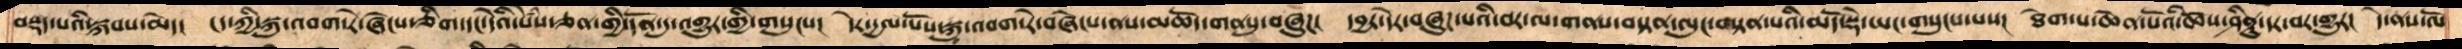བསྡད་པའི་སྐབས་མེད།  ངད་ཀྱི་སྐུ་འབག་རེ་ཞེངས་ཅིག་དང་དེའི་སེཾས་ཅན་གྱི་དོན་དུ་འགྱུར་གྱི་གསུངས།  དེར་དྱལ་པོས་སྐུ་འབག་རེ་བཞེངས་ནས་མཆོད་གནསུ་བཞུཌ།  དབྱར་དེར་བཞུཌ་པའི་བར་ལ་གནས་བསྟན་ལུང་བསྟན་པའི་མདོ་སྡེ་ཡང་གསུངས་པས།  ཐེག་པ་ཆེན་པོའི་ཆོས་ཤིནྟུ་དར་བར་གྱུར།  དེ་ནས་ལོ་
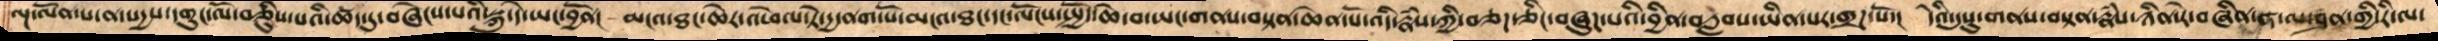ལྔ་ལོན་པ་ན་སདྱས་དགུང་ལོ་བཅིུས་པའི་ཚད་དུ་བཞེངས་པའི་སྐུ་དེ་ཡང་བྱོན།  མངའ་ཐང་ཆེར་འཕེལ་ཏེ་དྱ་ནག་པོ་མངའ་ཐང་དང་ལོངས་སྤྱོད་ཆེ་བ་ཡང་གནས་བསྟན་ཆེན་པོ་འདི་རྣཾས་ཀྱི་བཅད་ཅིང་བཞུཌ་པའི་བྱིན་བརླབས་ཡིན་པར་གྲཌ་སོ་།  དེའི་དུསུ་གནས་བསྟན་རྣཾས་ཉིན་རེ་བཞིན་ཤ་ལ་ཤན་གྱི་རི་ལ་
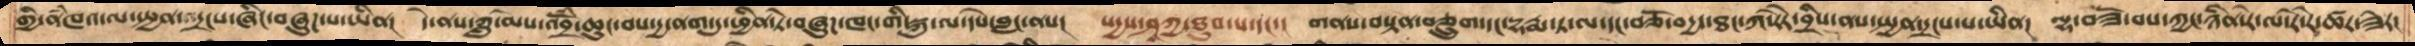གྱི་ནཾཁའ་ལ་སྤྱན་འདྲངས་ཞིང་བཞུཌ་པ་ཡིན།  དེ་ནས་ཀླུ་མོས་འབྲོཾ་ཆུང་བས་དྱ་ནག་དུ་ཕྱིན་ཏེ་བཞུཌ་ཁང་གི་སྐུ་ལ་དཔེ་བླང་ནས།  སདྱས་ཤཱཀྱ་ཐུབ་པ་དང་། གནས་བསྟན་བཅྲུག་དང་དྷརྨ་ཏ་ལ་དང་བཅོ་བདྱད་ཐང་ཀ་རཻ་བྲིས་ནས་སྤྱན་དྲངས་པ་ཡིན།  ལྷ་བཟོ་བས་ཀྱང་ཉིན་རེ་ལ་རེ་རེ་ཚར་ཟེར།
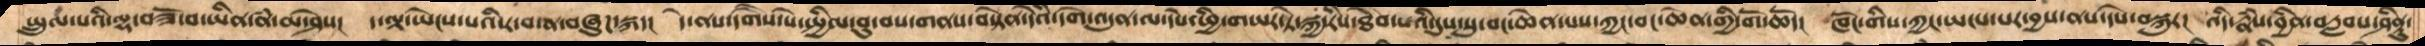སྤྲུལ་པའི་ལྷ་བཟོ་བ་ཡིན་ནཾ་མ་ཤེས།  ད་ལྟ་ཡེངས་པའི་ར་བ་ན་བཞུཌ་སྐད།  དེ་ནས་དགཻས་སྤྱིལ་བུ་བས་གནས་བསྟེན་དེའི་དགེ་འདུན་ལ་དེས་ཕྱི་གཡར་ཏེ་སྐྱ་རིས་ཐེབ་པའི་དུས་སུ་བང་ཆེན་པས་ཀྱང་བང་ཆེན་གྱི་གོ་ཆོད།  ཁོང་གིས་ཀྱང་ཡངས་པར་བྱས་ནས་དཔེ་བསྐུར།  འདི་རྣཾས་བྱིན་བརླབས་ཤིནྟུ་
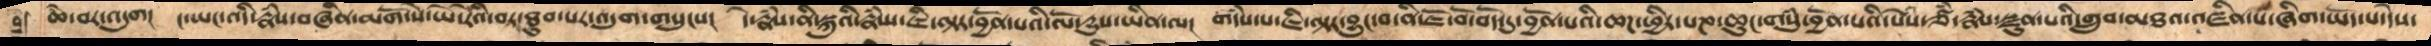ཆེ་བར་འདུག  ང་ཡང་འདི་རྣཾས་བཞིན་མགོ་སེ་ཡོ་རེའི་བར་ཐུབ་པར་འདུག་གསུངས།  དེ་རྣཾས་ནི་སྐུའི་རྣཾ་པ་ཇི་ལྟར་བྱོན་པའི་ལོ་དྱུས་ཡིན་ལ།  གདཾས་པ་ཇི་ལྟར་བྱུང་བ་ནི་ཇོ་བོ་བོད་དུ་བྱོན་པའི་ཆཌ་ཕྱིར་པཎ་ཆུང་གསུཾ་བྱོན་པའི་སེཾས་ཙཾ་རྣཾས་སྫུན་པའི་གྲུབ་མཐའ་འཛིན་པ་ཞིག་ཡོད་པ་དེས་
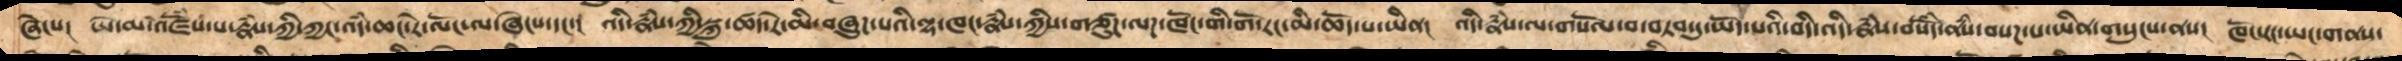ཞེངས།  ཡེ་མ་འཛོཾས་པ་རྣཾས་ཀྱི་ཀྱང་འདཾ་ཆང་རེ་ལོང་ལ་ཞེངས་དང་།  འདི་རྣཾས་ཀྱི་སྐུ་ཚད་རེ་མི་བཞུཌ་པའི་ལྷ་ཁང་རྣཾས་ཀྱིས་གཙུཌ་ལཌ་ཁོང་གི་གོ་རང་མི་ཆོད་པ་ཡིན།  འདི་རྣཾས་ལ་གསོལ་བ་བཏབ་དུ་ཡོད་པའི་བདི་འདི་རྣཾས་བསོཾད་ནཾས་བསཌ་པ་ཡིན་གསུངས་ནས།  ཁོ་རང་ཡང་གནས་
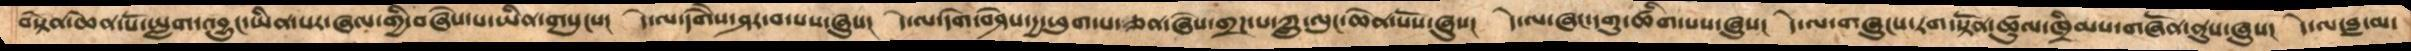བསྟེན་ཆེན་པོ་ཡླག་འབྱུང་ཡིན་པར་ཞལ་གྱི་བཞེས་པ་ཡིན་གསུངས།  དེ་ལ་དགཻས་ཤར་བ་པས་ཞུས།  དེ་ལ་དགེ་བཤེས་དྱ་ཕུག་པ་ཅན་ཞེས་གྲཌ་པ་ཀླུ་ལུང་ཆེན་པོས་ཞུས།  དེ་ལ་ཞང་དགུ་ཚིག་པས་ཞུས།  དེ་ལ་གཞུངས་རག་སྟོན་ཚུལ་ཁྲིམས་གཞོན་ནུས་ཞུས།  དེ་ལ་བླ་མ་
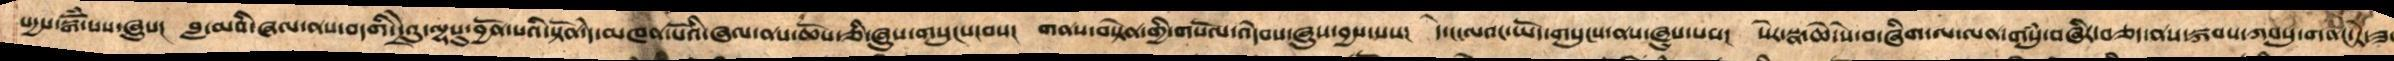སདྱས་སྒོཾ་པས་ཞུས།  བླ་མའི་ཞལ་ནས་བདགི་དྲེའུ་ལྷསུ་བྱོན་པའི་སྟོན་དེ་མཁན་པོའི་ཞལ་ནས་ཆོས་ཅི་ཞུས་གསུངས་བས།  གནས་བསྟེན་གྱི་གསོལ་འདེབས་ཞུས་བྱས་པས།  དེ་ངང་ལའང་ཡོད་གསུངས་ནས་ཞུས་པས།  སེར་སྣ་ཆེ་སེ་བ་ཞིག་ལ་ལན་གསུཾ་བཞིར་བཅད་ནས་སྐབསུ་གནང་ཏེ་ཟ་
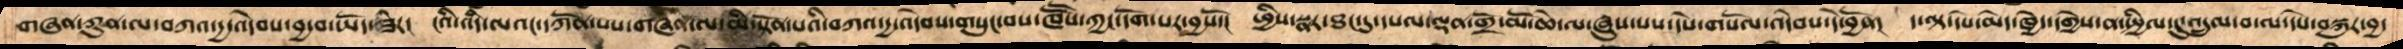གཞན་ཀུན་ལ་བཀའ་དྱ་འདེབས་བྱ་བ་ཡོད་ཟེར།  ངའི་འདི་ལའང་དཀོན་པས་གཞན་ལ་མི་སྟོན་པའི་བཀའ་དྱ་འདེབས་གསུང་བས་ཁཽས་ཀྱང་དོག་པར་བྱས་སོ།  ཕྱིས་སྣར་ཐང་དུ་དཔལ་ལྡན་གྲོ་མོ་ཆེ་ལ་ཞུས་པས་དེས་གསོལ་འདེབས་དེ་བྱོན།  ད་ལྟ་དཔེ་མེད་ཁྱེད་དགྱེས་ན་སྤྱིལ་དུ་འདྲུལ་བ་ལ་དཔེ་བསྐུར་བྱ་
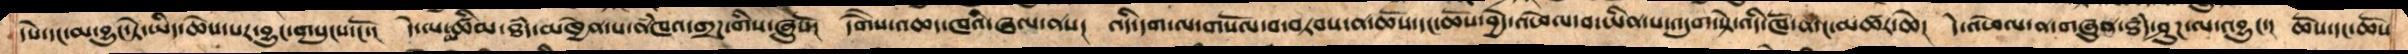དཔེ་དང་མ་བྱུང་ཏེ་ཡིད་ཆེས་པར་བྱུང་གསུངས་ངོ་། དེ་ལ་མཚིམ་ཐཾད་མཁྱེན་པ་ནཾཁའ་གྲཌ་གིས་ཞུསོ། དགཻས་འཆད་ཁའི་ཞལ་ནས། འདི་དག་ལ་གསོལ་བ་བཏབས་ན་ཆོས་དང་ཆོས་བྱེད་འཕེལ་བ་ཡིན་པར་འདུག་སྟེ་འདི་ཁོ་ན་ངོ་མཚར་ཆེ། དེ་འཕེལ་ན་གཞུན་ཐཾད་ཤུཌ་ལ་འབྱུང་། ཆོས་དང་ཆོས
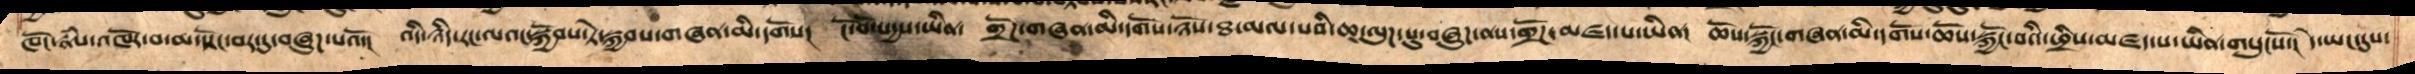ཁོང་རྣཾས་འཁོར་བ་མ་སྟོང་བར་དུ་བཞུཌ་པའོ།  འདི་ཉིད་རང་ལའང་སྐྱོབས་ཏེ་སྐྱབས་གཞན་མི་དགོས།  ངོ་བོ་སདྱས་ཡིན།  གྲོཌ་གཞན་མི་དགོས་ཉོས་ཐ་མལ་པའི་ཆ་ལུཌ་སུ་བཞུཌ་ནས་གྲོཌ་མཛད་པ་ཡིན།  ཆོས་སྐྱོང་གཞན་མི་དགོས་ཆོས་སྐྱོང་བའི་འཕྲིས་མཛད་པ་ཡིན་གསུངསོ་།  དེ་ཡང་དུས་
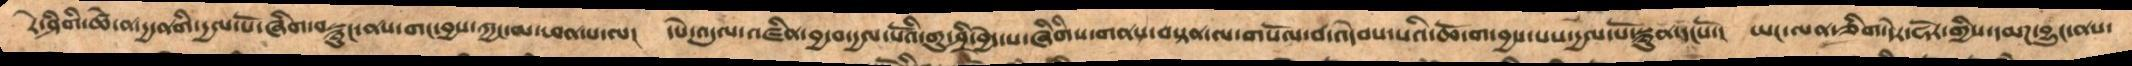རེ་ཤིགི་ཚེ་ན་དྱ་ནགི་དྱལ་པོ་ཞིག་བསྙུང་ནས་གང་བྱས་ཀྱང་མ་ཕན་པ་ལ།  དཔེ་འདུལ་འཛིན་བྱ་བ་དྱལ་པོའི་གུ་ཤྲི་བྱེད་པ་ཞིགིས་གནས་བསྟན་ལ་གསོལ་བ་འདེབས་པའི་ཆོ་ག་བྱས་པས་དྱལ་པོའི་སྙུན་དངསོ།  ཡང་ལན་ཅིག་དེར་ཧོར་གྱིས་དམཌ་བྱུང་ནས་
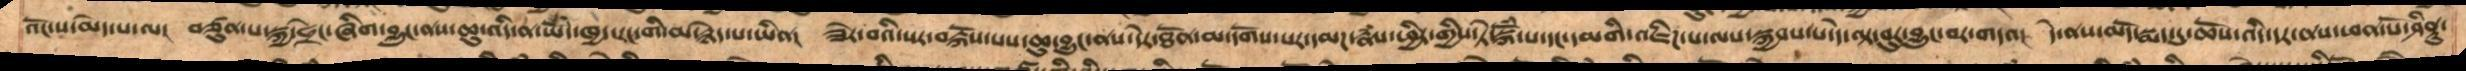འོང་ས་མེད་པ་ལ།  བཙུན་པ་སྐྱ་ཧྲེང་ཞིག་བྱུང་ནས་ཆུ་འདི་ན་ཡོདེ་ཁྱེད་རང་གི་མ་རྙེད་པ་ཡིན།  ཟེར་བའི་སར་བརྐོས་པས་ཆུ་བྱུང་ནས་དེར་ཐོན་མ་དགོས་པར་དམཌ་རྣཾས་ཕྱིར་གྱིས་ཏེ་སྐོཾ་པ་དང་དམགི་འཇིཌ་པ་ལས་སྐྱབས་པ་དེ་ལྟ་བུ་བྱུང་བར་གདའ།  དེ་ནས་མདོ་སྨད་དུ་ཆོས་འདི་དར་ནས་ཕན་པོ་ཤིནྟུ་
